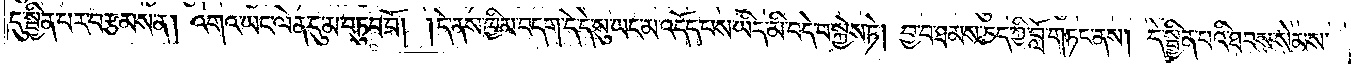དུ་སྦྱིན་པར་བརྩམས་ན། འགའ་ཡང་ལེན་དུ་མ་བཏུབ་བོ། །དེ་ནས་ཁྱིམ་བདག་དེ་དེ་སུ་ཡང་མ་འདོད་པས་ཡིད་མི་བདེ་བ་སྐྱེས་ཏེ། བྱ་བ་ཐམས་ཅད་ཀྱི་བློ་གཏང་ནས། དེ་སྦྱིན་པའི་ཐབས་སེམས་
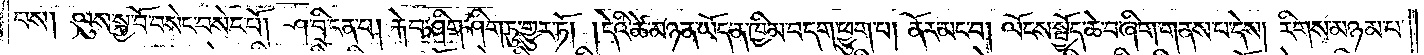པས༑ ལུས་སྐྱ་བོ་བསེང་བསེང་པོ། ཤ་བྲིང་ངན་པ། རྐེ་བ་ཤིག་ཤིག་ཏུ་གྱུར་ཏོ། །དེའི་ཚེ་མཉན་ཡོད་ན་ཁྱིམ་བདག་ཕྱུག་པ། ནོར་མང་བ། ལོངས་སྤྱོད་ཆེ་བ་ཞིག་གནས་པ་དེས། རིགས་མཉམ་པ་
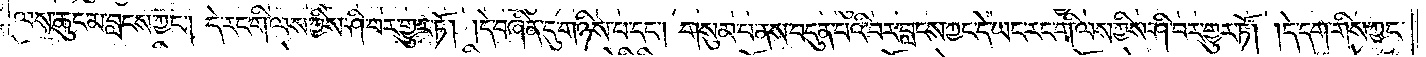ལས་ཆུང་མ་བླངས་ཀྱང༌། དེ་རང་གི་ལས་ཀྱིས་ཤི་བར་གྱུར་ཏོ། །དེ་བཞིན་དུ་གཉིས་པ་དང༌། གསུམ་པ་ནས་བདུན་པའི་བར་བླངས་ཀྱང་དེ་ཡང་རང་གི་ལས་ཀྱིས་ཤི་བར་གྱུར་ཏོ། །དེ་དག་གིས་ཀྱང་
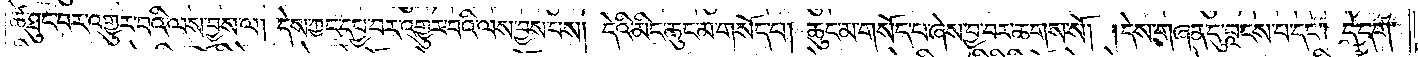ཚེ་ཐུང་བར་འགྱུར་བའི་ལས་བྱས་ལ། དེས་ཀྱང་དཔྱ་བར་འགྱུར་བའི་ལས་བྱས་པས། དེའི་མིང་ཆུང་མ་གསོད་པ། ཆུང་མ་གསོད་པ་ཞེས་བྱ་བར་ཆགས་སོ། །དེས་གཞན་དུ་བླངས་པ་དང༌། དེ་དག་
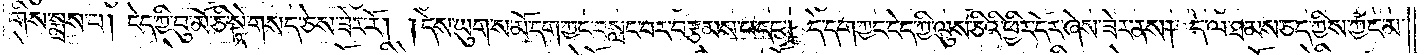གིས་སྨྲས་པ། ངེད་ཀྱི་བུ་མོ་ཅི་སེ་གསད་ཅེས་ཟེར་རོ། །དེས་ཡུགས་མོ་དག་ཀྱང་བསླང་བར་བརྩམས་པ་དང༌། དེ་དག་ཀྱང་ངེད་ཀྱི་ལུས་ཅིའི་ཕྱིར་དོར་ཞེས་ཟེར་ནས། དེ་ལ་ཐམས་ཅད་ཀྱིས་ཀྱང་མ་
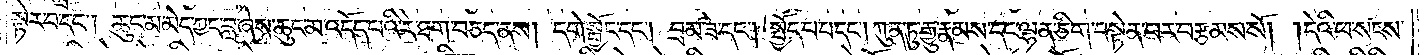སྟེར་བ་དང༌། ཆུང་མ་མེད་ཀྱང་བླ་ཞེས་ཆུང་མ་འདོད་པའི་རེ་ཐག་བཅད་ནས། དགེ་སྦྱོང་དང༌། བྲམ་ཟེ་དང༌། སྤྱོད་པ་པ་དང༌། ཀུན་ཏུ་རྒྱུ་རྣམས་དང་ལྷན་ཅིག་ཏུ་བསྟེན་པར་བརྩམས་སོ། །དེའི་ཕ་སངས་
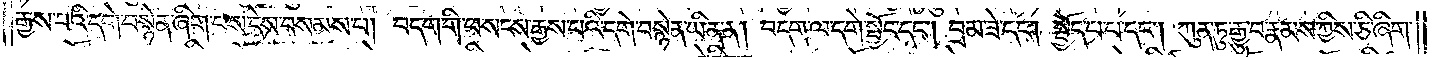རྒྱས་པའི་དགེ་བསྙེན་ཞིག་པས་དེས་བསམས་པ། བདག་གི་ཕ་སངས་རྒྱས་པའི་དགེ་བསྙེན་ཡིན་ན། བདག་ལ་དགེ་སྦྱོང་དང༌། བྲམ་ཟེ་དང༌། སྤྱོད་པ་པ་དང༌། ཀུན་ཏུ་རྒྱུ་བ་རྣམས་ཀྱིས་ཅི་ཞིག་
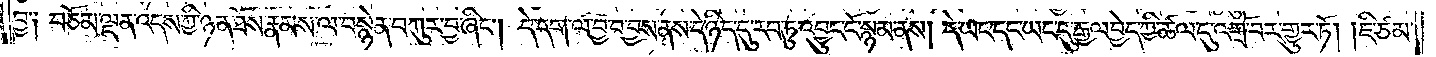བྱ༑ བཅོམ་ལྡན་འདས་ཀྱི་ཉན་ཐོས་རྣམས་ལ་བསྙེན་བཀུར་བྱ་ཞིང༌། དེ་དག་ལ་བྱ་བ་བྱས་ནས་དེ་ཉིད་དུ་རབ་ཏུ་འབྱུང་ངོ་སྙམ་ནས། དེ་ཡང་དང་ཡང་དུ་རྒྱལ་བྱེད་ཀྱི་ཚལ་དུ་འགྲོ་བར་གྱུར་ཏོ། །ཇི་ཙམ་
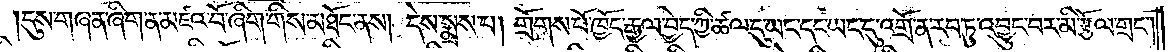དུས་གཞན་ཞིག་ན་མཛའ་བོ་ཞིག་གིས་མཐོང་ནས། དེས་སྨྲས་པ། གྲོགས་པོ་ཁྱོད་རྒྱལ་བྱེད་ཀྱི་ཚལ་དུ་ཡང་དང་ཡང་དུ་འགྲོ་ན་རབ་ཏུ་འབྱུང་བར་མི་རྩོལ་གྲང་
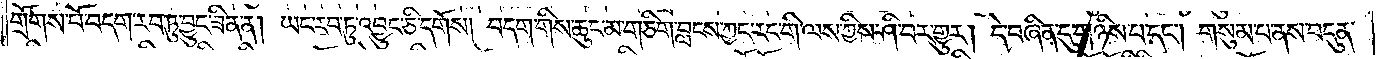གྲོགས་པོ་བདག་རབ་ཏུ་བྱུང་ཟིན་ན། ཡང་རབ་ཏུ་འབྱུང་ཅི་དགོས། བདག་གིས་ཆུང་མ་གཅིག་བླངས་ཀྱང་རང་གི་ལས་ཀྱིས་ཤི་བར་གྱུར། དེ་བཞིན་དུ་གཉིས་པ་དང༌། གསུམ་པ་ནས་བདུན་
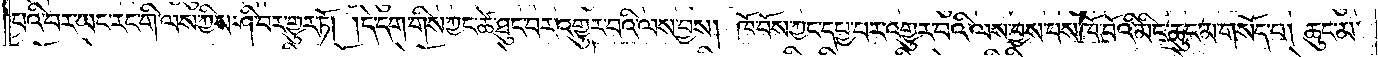པའི་བར་ཡང་རང་གི་ལས་ཀྱིས་ཤི་བར་གྱུར་ཏོ། །དེ་དག་གིས་ཀྱང་ཚེ་ཐུང་བར་འགྱུར་བའི་ལས་བྱས། ཁོ་བོས་ཀྱང་དཔྱ་བར་འགྱུར་བའི་ལས་བྱས་པས་ཁོ་བོའི་མིང་ཆུང་མ་གསོད་པ། ཆུང་མ་
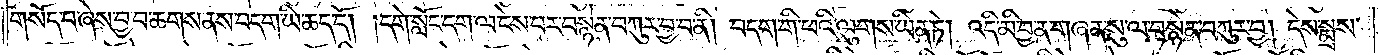གསོད་པ་ཞེས་བྱ་བ་ཆགས་ནས་བདག་ཡི་ཆད་དོ། །དགེ་སློང་དག་ལ་ངེས་པར་བསྙེན་བཀུར་བྱ་བ་ནི། བདག་གི་ཕའི་ལུགས་ཡིན་ཏེ། འདི་མི་བྱ་ན་གཞན་སུ་ལ་བསྙེན་བཀུར་བྱ། དེས་སྨྲས་
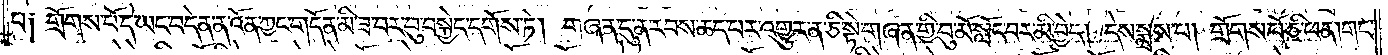པ༑ གྲོགས་པོ་དེ་ཡང་བདེན་ན་འོན་ཀྱང་གདོན་མི་ཟ་བར་བུ་བསྐྱེད་དགོས་ཏེ། གཞན་དུ་ན་རབས་ཆད་པར་འགྱུར་ན་ཅི་སྟེ་གཞན་གྱི་བུ་མོ་སློང་བར་མི་བྱེད། དེས་སྨྲས་པ། གྲོགས་པོ་ཅི་ཕན། གང་
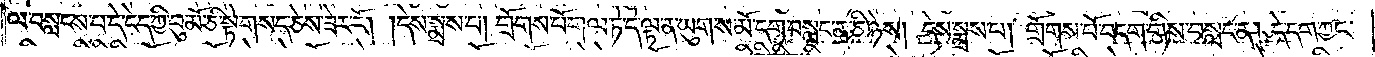ལ་བསླངས་པ་དེ་ངེད་ཀྱི་བུ་མོ་ཅི་སྟེ་གསད་ཅེས་ཟེར་རོ། །དེས་སྨྲས་པ། གྲོགས་པོ་གལ་ཏེ་དེ་ལྟ་ན་ཡུག་ས་མོ་དག་བསླང་ན་ཅི་ཉེས། དེས་སྨྲས་པ། གྲོགས་པོ་བདག་གིས་བསླང་ན། དེ་དག་ཀྱང་
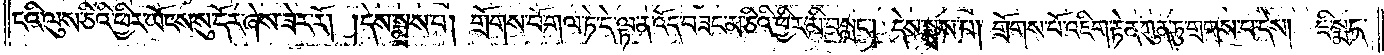ངའི་ལུས་ཅིའི་ཕྱིར་ཡོངས་སུ་དོར་ཞེས་ཟེར་རོ། །དེས་སྨྲས་པ། གྲོགས་པོ་གལ་ཏེ་དེ་ལྟ་ན་འོད་བཟང་མ་ཅིའི་ཕྱིར་མི་བསླང༌། དེས་སྨྲས་པ། གྲོགས་པོ་འཇིག་རྟེན་ཀུན་ཏུ་གྲགས་པ་དེས། ཇི་སྨད་
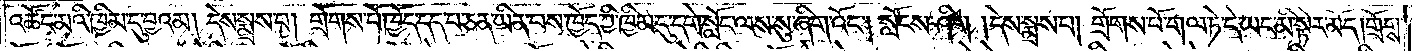འཚོང་མའི་ཁྱིམ་དུ་བྱའམ། དེས་སྨྲས་པ། གྲོགས་པོ་ཁྱོད་དད་པ་ཅན་ཡིན་པས་ཁྱོད་ཀྱི་ཁྱིམ་དུ་དགེ་སློང་ལས་སུ་ཞིག་འོང༌། སློངས་ཤིག །དེས་སྨྲས་པ། གྲོགས་པོ་གལ་ཏེ་དེ་ཡང་མི་སྟེར་མོད། གྲོགས་
